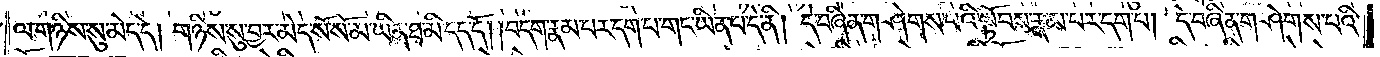ལ་གཉིས་སུ་མེད་དེ། གཉིས་སུ་བྱར་མེད་སོ་སོ་མ་ཡིན་ཐ་མི་དད་དོ། །བདག་རྣམ་པར་དག་པ་གང་ཡིན་པ་དེ་ནི། དེ་བཞིན་གཤེགས་པའི་སྟོབས་རྣམ་པར་དག་པ། དེ་བཞིན་གཤེགས་པའི་
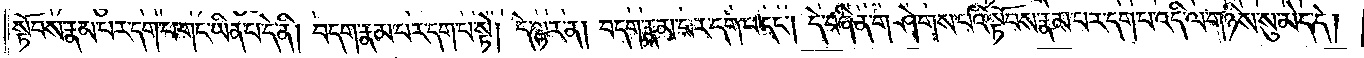སྟོབས་རྣམ་པར་དག་པ་གང་ཡིན་པ་དེ་ནི། བདག་རྣམ་པར་དག་པ་སྟེ། དེ་ལྟར་ན། བདག་རྣམ་པར་དག་པ་དང༌། དེ་བཞིན་གཤེགས་པའི་སྟོབས་རྣམ་པར་དག་པ་འདི་ལ་གཉིས་སུ་མེད་དེ།
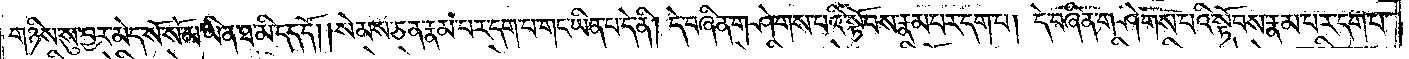གཉིས་སུ་བྱར་མེད་སོ་སོ་མ་ཡིན་ཐ་མི་དད་དོ། །སེམས་ཅན་རྣམ་པར་དག་པ་གང་ཡིན་པ་དེ་ནི། དེ་བཞིན་གཤེགས་པའི་སྟོབས་རྣམ་པར་དག་པ། དེ་བཞིན་གཤེགས་པའི་སྟོབས་རྣམ་པར་དག་པ་
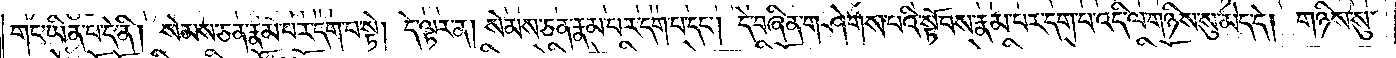གང་ཡིན་པ་དེ་ནི། སེམས་ཅན་རྣམ་པར་དག་པ་སྟེ། དེ་ལྟར་ན། སེམས་ཅན་རྣམ་པར་དག་པ་དང༌། དེ་བཞིན་གཤེགས་པའི་སྟོབས་རྣམ་པར་དག་པ་འདི་ལ་གཉིས་སུ་མེད་དེ། གཉིས་སུ་
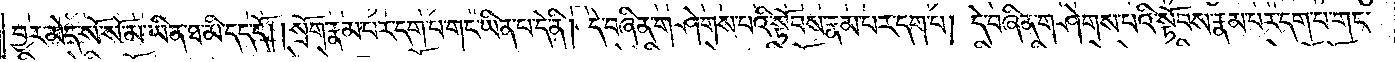བྱར་མེད་སོ་སོ་མ་ཡིན་ཐ་མི་དད་དོ། །སྲོག་རྣམ་པར་དག་པ་གང་ཡིན་པ་དེ་ནི། དེ་བཞིན་གཤེགས་པའི་སྟོབས་རྣམ་པར་དག་པ། དེ་བཞིན་གཤེགས་པའི་སྟོབས་རྣམ་པར་དག་པ་གང་
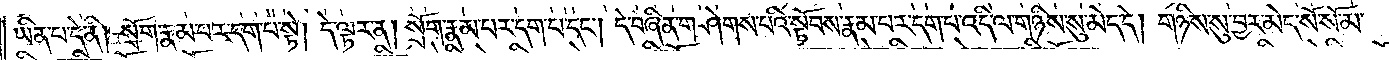ཡིན་པ་དེ་ནི། སྲོག་རྣམ་པར་དག་པ་སྟེ། དེ་ལྟར་ན། སྲོག་རྣམ་པར་དག་པ་དང༌། དེ་བཞིན་གཤེགས་པའི་སྟོབས་རྣམ་པར་དག་པ་འདི་ལ་གཉིས་སུ་མེད་དེ། གཉིས་སུ་བྱར་མེད་སོ་སོ་མ་
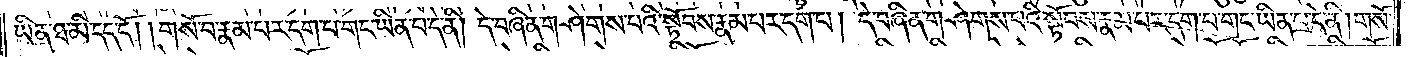ཡིན་ཐ་མི་དད་དོ། །གསོ་བ་རྣམ་པར་དག་པ་གང་ཡིན་པ་དེ་ནི། དེ་བཞིན་གཤེགས་པའི་སྟོབས་རྣམ་པར་དག་པ། དེ་བཞིན་གཤེགས་པའི་སྟོབས་རྣམ་པར་དག་པ་གང་ཡིན་པ་དེ་ནི། གསོ་
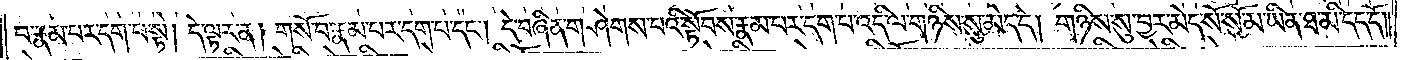བ་རྣམ་པར་དག་པ་སྟེ། དེ་ལྟར་ན། གསོ་བ་རྣམ་པར་དག་པ་དང༌། དེ་བཞིན་གཤེགས་པའི་སྟོབས་རྣམ་པར་དག་པ་འདི་ལ་གཉིས་མེད་དེ། གཉིས་སུ་བྱར་མེད་སོ་སོ་མ་ཡིན་ཐ་མི་དད་དོ། །
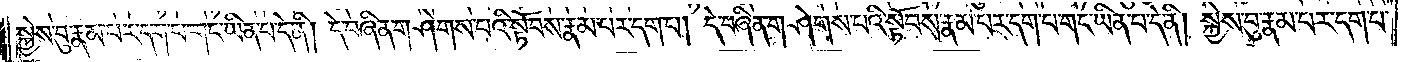སྐྱེས་བུ་རྣམ་པར་དག་པ་གང་ཡིན་པ་དེ་ནི། དེ་བཞིན་གཤེགས་པའི་སྟོབས་རྣམ་པར་དག་པ། དེ་བཞིན་གཤེགས་པའི་སྟོབས་རྣམ་པར་དག་པ་གང་ཡིན་པ་དེ་ནི། སྐྱེས་བུ་རྣམ་པར་དག་པ་
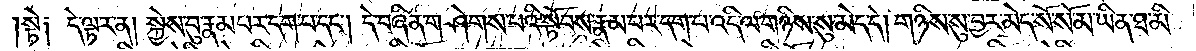སྟེ༑ དེ་ལྟར་ན། སྐྱེས་བུ་རྣམ་པར་དག་པ་དང༌། དེ་བཞིན་གཤེགས་པའི་སྟོབས་རྣམ་པར་དག་པ་འདི་ལ་གཉིས་སུ་མེད་དེ། གཉིས་སུ་བྱར་མེད་སོ་སོ་མ་ཡིན་ཐ་མི་
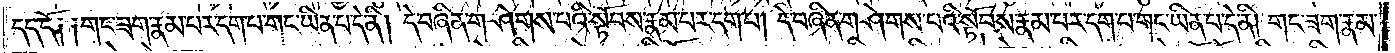དད་དོ༑ ༑གང་ཟག་རྣམ་པར་དག་པ་གང་ཡིན་པ་དེ་ནི། དེ་བཞིན་གཤེགས་པའི་སྟོབས་རྣམ་པར་དག་པ། དེ་བཞིན་གཤེགས་པའི་སྟོབས་རྣམ་པར་དག་པ་གང་ཡིན་པ་དེ་ནི། གང་ཟག་རྣམ་
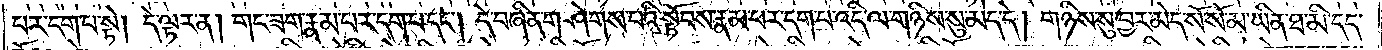པར་དག་པ་སྟེ། དེ་ལྟར་ན། གང་ཟག་རྣམ་པར་དག་པ་དང༌། དེ་བཞིན་གཤེགས་པའི་སྟོབས་རྣམ་པར་དག་པ་འདི་ལ་གཉིས་སུ་མེད་དེ། གཉིས་སུ་བྱར་མེད་སོ་སོ་མ་ཡིན་ཐ་མི་དད་
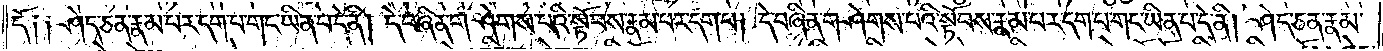དོ༑ ༑ཤེད་ཅན་རྣམ་པར་དག་པ་གང་ཡིན་པ་དེ་ནི། དེ་བཞིན་གཤེགས་པའི་སྟོབས་རྣམ་པར་དག་པ། དེ་བཞིན་གཤེགས་པའི་སྟོབས་རྣམ་པར་དག་པ་གང་ཡིན་པ་དེ་ནི། ཤེད་ཅན་རྣམ་
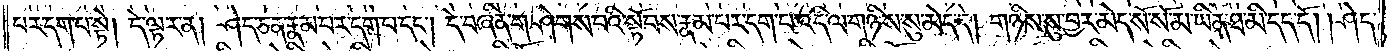པར་དག་པ་སྟེ། དེ་ལྟར་ན། ཤེད་ཅན་རྣམ་པར་དག་པ་དང༌། དེ་བཞིན་གཤེགས་པའི་སྟོབས་རྣམ་པར་དག་པ་འདི་ལ་གཉིས་སུ་མེད་དེ། གཉིས་སུ་བྱར་མེད་སོ་སོ་མ་ཡིན་ཐ་མི་དད་དོ། །ཤེད་
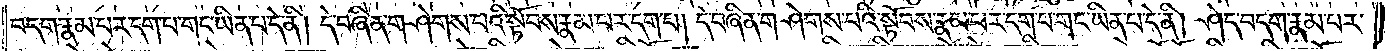བདག་རྣམ་པར་དག་པ་གང་ཡིན་པ་དེ་ནི། དེ་བཞིན་གཤེགས་པའི་སྟོབས་རྣམ་པར་དག་པ། དེ་བཞིན་གཤེགས་པའི་སྟོབས་རྣམ་པར་དག་པ་གང་ཡིན་པ་དེ་ནི། ཤེད་བདག་རྣམ་པར་
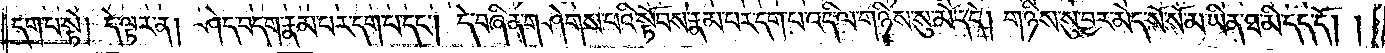དག་པ་སྟེ། དེ་ལྟར་ན། ཤེད་བདག་རྣམ་པར་དག་པ་དང༌། དེ་བཞིན་གཤེགས་པའི་སྟོབས་རྣམ་པར་དག་པ་འདི་ལ་གཉིས་མེད་དེ། གཉིས་སུ་བྱར་མེད་སོ་སོ་མ་ཡིན་ཐ་མི་དད་དོ། །
